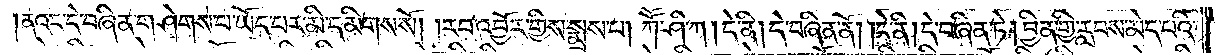ནའང་དེ་བཞིན་གཤེགས་པ་ཡོད་པར་མི་དམིགས་སོ། །རབ་འབྱོར་གྱིས་སྨྲས་པ། ཀཽ་ཤི་ཀ། དེ་ནི། དེ་བཞིན་ནོ། །དེ་ནི། དེ་བཞིན་ཏེ། བྱིན་གྱི་རླབས་མེད་པའི་
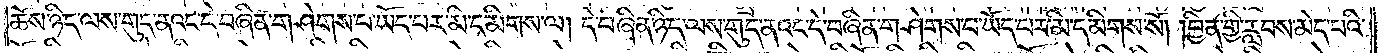ཆོས་ཉིད་ལས་གུད་ནའང་དེ་བཞིན་གཤེགས་པ་ཡོད་པར་མི་དམིགས་ལ། དེ་བཞིན་ཉིད་ལས་གུད་ནའང་དེ་བཞིན་གཤེགས་པ་ཡོད་པར་མི་དམིགས་སོ། །བྱིན་གྱི་རླབས་མེད་པའི་
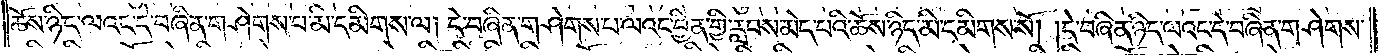ཆོས་འདི་ལའང་དེ་བཞིན་གཤེགས་པ་མི་དམིགས་ལ། དེ་བཞིན་གཤེགས་པ་ལའང་བྱིན་གྱི་རླབས་མེད་པའི་ཆོས་ཉིད་མི་དམིགས་སོ། །དེ་བཞིན་ཉིད་ལའང་དེ་བཞིན་གཤེགས་
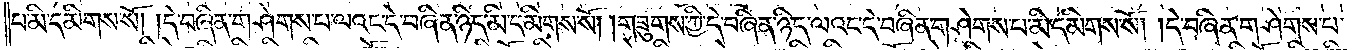པ་མི་དམིགས་སོ། །དེ་བཞིན་གཤེགས་པ་ལའང་དེ་བཞིན་ཉིད་མི་དམིགས་སོ། །གཟུགས་ཀྱི་དེ་བཞིན་ཉིད་ལའང་དེ་བཞིན་གཤེགས་པ་མི་དམིགས་སོ། །དེ་བཞིན་གཤེགས་པ་
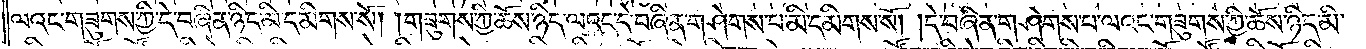ལའང་གཟུགས་ཀྱི་དེ་བཞིན་ཉིད་མི་དམིགས་སོ། །གཟུགས་ཀྱི་ཆོས་ཉིད་ལའང་དེ་བཞིན་གཤེགས་པ་མི་དམིགས་སོ། །དེ་བཞིན་གཤེགས་པ་ལའང་གཟུགས་ཀྱི་ཆོས་ཉིད་མི་
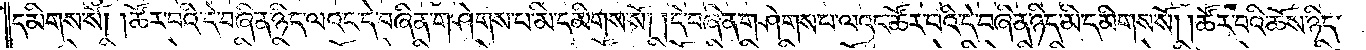དམིགས་སོ། །ཚོར་བའི་དེ་བཞིན་ཉིད་ལའང་དེ་བཞིན་གཤེགས་པ་མི་དམིགས་སོ། །དེ་བཞིན་གཤེགས་པ་ལའང་ཚོར་བའི་དེ་བཞིན་ཉིད་མི་དམིགས་སོ། །ཚོར་བའི་ཆོས་ཉིད་
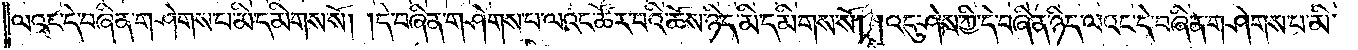ལའང་དེ་བཞིན་གཤེགས་པ་མི་དམིགས་སོ། །དེ་བཞིན་གཤེགས་པ་ལའང་ཚོར་བའི་ཆོས་ཉིད་མི་དམིགས་སོ། །འདུ་ཤེས་ཀྱི་དེ་བཞིན་ཉིད་ལའང་དེ་བཞིན་གཤེགས་པ་མི་
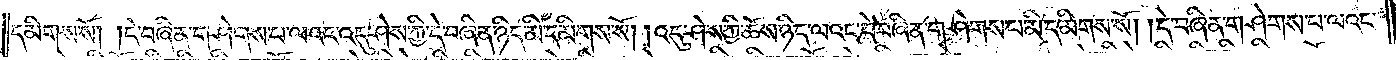དམིགས་སོ། །དེ་བཞིན་གཤེགས་པ་ལའང་འདུ་ཤེས་ཀྱི་དེ་བཞིན་ཉིད་མི་དམིགས་སོ། །འདུ་ཤེས་ཀྱི་ཆོས་ཉིད་ལའང་དེ་བཞིན་གཤེགས་པ་མི་དམིགས་སོ། །དེ་བཞིན་གཤེགས་པ་ལའང་
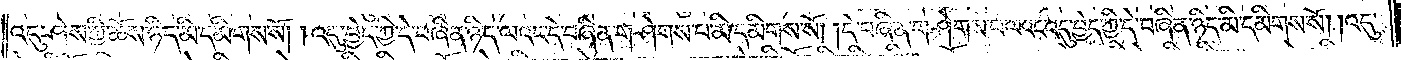འདུ་ཤེས་ཀྱི་ཆོས་ཉིད་མི་དམིགས་སོ། །འདུ་བྱེད་ཀྱི་དེ་བཞིན་ཉིད་ལའང་དེ་བཞིན་གཤེགས་པ་མི་དམིགས་སོ། །དེ་བཞིན་གཤེགས་པ་ལའང་འདུ་བྱེད་ཀྱི་དེ་བཞིན་ཉིད་མི་དམིགས་སོ། །འདུ་
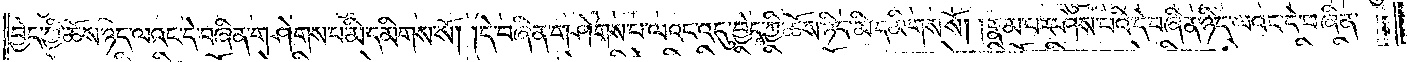བྱེད་ཀྱི་ཆོས་ཉིད་ལའང་དེ་བཞིན་གཤེགས་པ་མི་དམིགས་སོ། །དེ་བཞིན་གཤེགས་པ་ལའང་འདུ་བྱེད་ཀྱི་ཆོས་ཉིད་མི་དམིགས་སོ། །རྣམ་པར་ཤེས་པའི་དེ་བཞིན་ཉིད་ལའང་དེ་བཞིན་
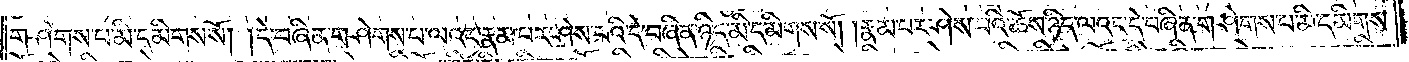གཤེགས་པ་མི་དམིགས་སོ། །དེ་བཞིན་གཤེགས་པ་ལའང་རྣམ་པར་ཤེས་པའི་དེ་བཞིན་ཉིད་མི་དམིགས་སོ། །རྣམ་པར་ཤེས་པའི་ཆོས་ཉིད་ལའང་དེ་བཞིན་གཤེགས་པ་མི་དམིགས་
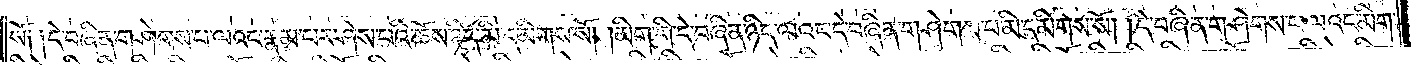སོ། །དེ་བཞིན་གཤེགས་པ་ལའང་རྣམ་པར་ཤེས་པའི་ཆོས་ཉིད་མི་དམིགས་སོ། །མིག་གི་དེ་བཞིན་ཉིད་ལའང་དེ་བཞིན་གཤེགས་པ་མི་དམིགས་སོ། །དེ་བཞིན་གཤེགས་པ་ལའང་མིག་
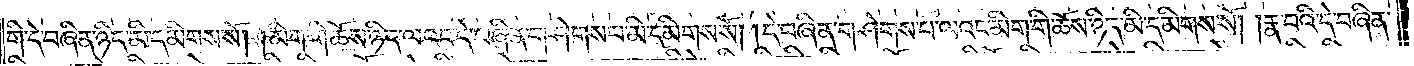གི་དེ་བཞིན་ཉིད་མི་དམིགས་སོ། །མིག་གི་ཆོས་ཉིད་ལའང་དེ་བཞིན་གཤེགས་པ་མི་དམིགས་སོ། །དེ་བཞིན་གཤེགས་པ་ལའང་མིག་གི་ཆོས་ཉིད་མི་དམིགས་སོ། །རྣ་བའི་དེ་བཞིན་
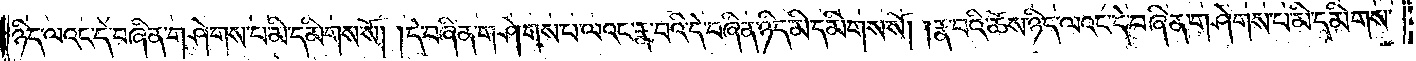ཉིད་ལའང་དེ་བཞིན་གཤེགས་པ་མི་དམིགས་སོ། །དེ་བཞིན་གཤེགས་པ་ལའང་རྣ་བའི་དེ་བཞིན་ཉིད་མི་དམིགས་སོ། །རྣ་བའི་ཆོས་ཉིད་ལའང་དེ་བཞིན་གཤེགས་པ་མི་དམིགས་
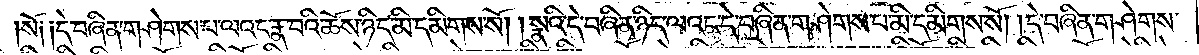སོ༏ ༏དེ་བཞིན་གཤེགས་པ་ལའང་རྣ་བའི་ཆོས་ཉིད་མི་དམིགས་སོ། །སྣའི་དེ་བཞིན་ཉིད་ལའང་དེ་བཞིན་གཤེགས་པ་མི་དམིགས་སོ། །དེ་བཞིན་གཤེགས་
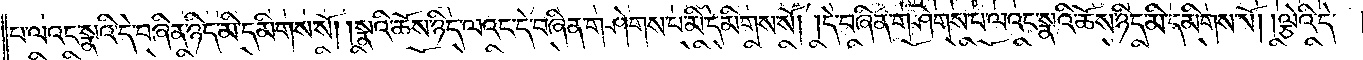པ་ལའང་སྣའི་དེ་བཞིན་ཉིད་མི་དམིགས་སོ། །སྣའི་ཆོས་ཉིད་ལའང་དེ་བཞིན་གཤེགས་པ་མི་དམིགས་སོ། །དེ་བཞིན་གཤེགས་པ་ལའང་སྣའི་ཆོས་ཉིད་མི་དམིགས་སོ། །ལྕེའི་དེ་
